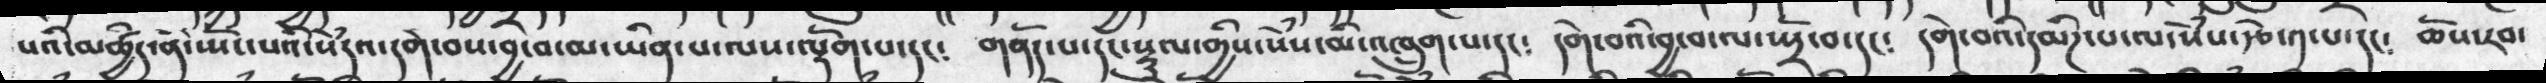པའི་མཚྱིད་ནི་ཡོང་པའི་སེྃདའ་དགེ་བས་བྱ་བ་མ་ཡིན་པ་ལས་ལྡོག་པ་དང༴  གནོད་པ་དང་སྡུལ་གྱིས་སེྃས་མི་འཁྲུག་པ་དང༴  དགེ་བའི་བྱ་བ་ལ་སྤྲོ་བ་དང༴  དགེ་བའི་དམིཌ་པ་ལ་སེྃས་རྩེ་༡་པ་དང༴   ཆོས་རབ་
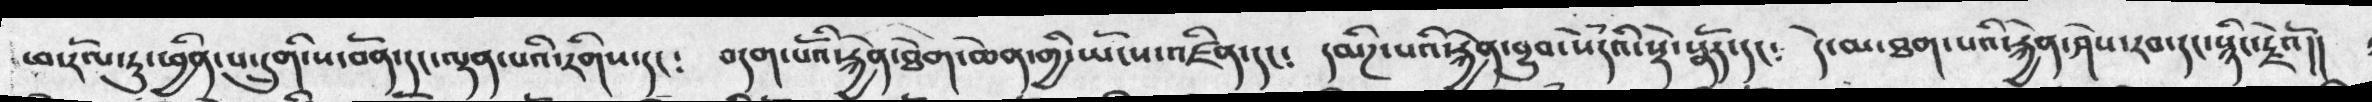ཕ་རོལ་ཏུ་ཕྱིན་པ་དྲུགི་སབོན་དང་ལྡན་པའི་རིགས་དང༴   བདག་པོའི་རྐྱེན་ཐེག་ཆེན་གྱི་ཡོངས་འཛིན་དང༴   དམིཌ་པའི་རྐྱེན་བྱུབ་སེདྃའི་སྟེ་སྣོད་དང༴   དེ་མ་ཐག་པའི་རྐྱེན་ཤེས་རབ་དང་སྙིང་རྗེའོ།།
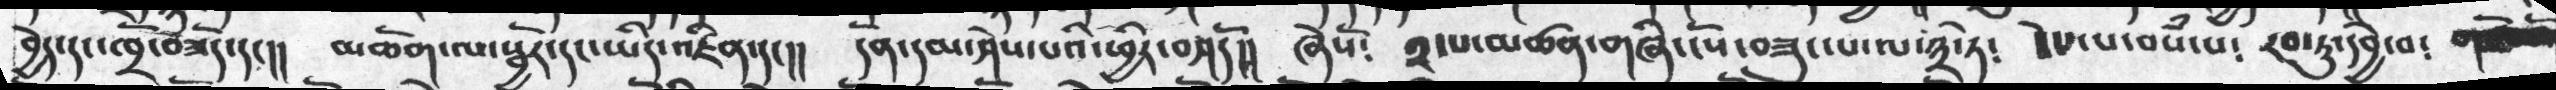བྱེད་དང་ཁྲོ་བཟོད་དང།།   མཆོག་ལ་སྦྱོར་དང་ཡིད་འཛིན་དང།།  དོན་དམ་ཤེས་པའི་ཕྱིར་བཤད་དོ།  ཞེསོ༴   ༢་པ་མཚན་གཞི་ངོས་བཟུང་པ་ལ་༣་ཏེ༴  ངེས་པ་བསཾ་པ༴   རབ་ཏུ་དབྱེ་བ༴  གཙོ་བོ་
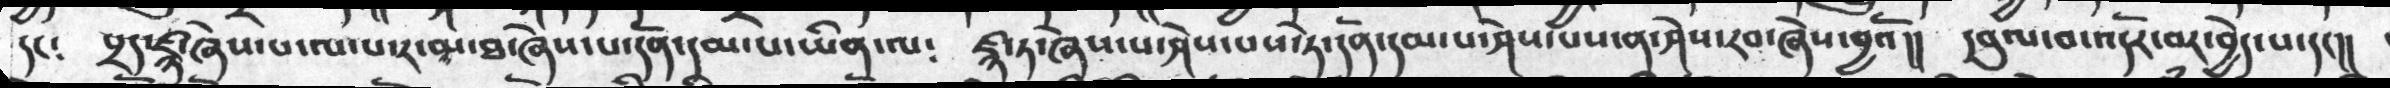དང༴    པྲདདཛྙ་ཞེས་པ་ལ་པ་ར་མ་ཐ་ཞེས་པ་དོན་དམ་པ་ཡིན་ལ༴   ཛྙ་ཏ་ཞེས་པ་ཤེས་པས་ཏེ་དོན་དམ་པ་ཤེས་པས་ན་ཤེས་རབ་ཞེས་བྱའོ།།   དབུལ་བ་འདོར་བར་བྱེད་པ་དང།།
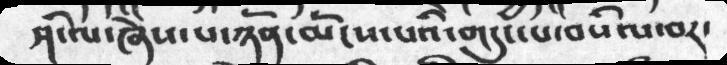ཤི་ལ་ཞེས་པ་ཉོན་མོངས་པའི་གདུང་པ་བསིལ་བར་
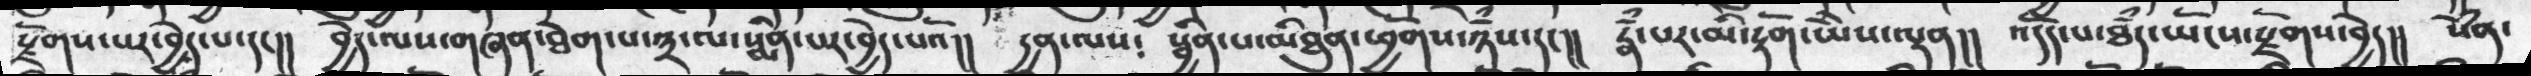སྗོགས་པར་བྱེད་པ་དང།།   བྱེད་ལས་གཞན་ཐེག་པ་༣་ལ་སྨིན་པར་བྱེད་པའོ།།   དྱན་ལས༴   སྦྱིན་པ་མིཐུན་ཕྱོགས་ཉཾས་དང།།   རྣཾ་པར་མི་རྟོག་ཡེེས་ལྡན།།  འདོད་པ་ཐཾད་ཡོངས་རྗོགས་བྱེད།།   སེཾན་
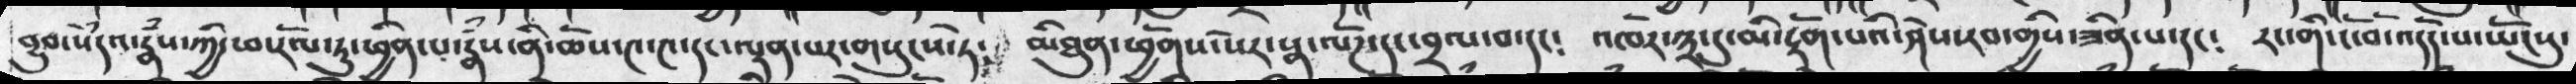བྱུབ་སེྃདའ་རྣཾས་ཀྱི་ཕ་རོལ་ཏུ་ཕྱིན་པ་རྣཾས་ནི་ཆོས་༤་༤་དང་ལྡན་པར་གསུངས་ཏེ༴   མིཐུན་ཕྱོགས་སེར་སྣ་ལོཌ་དང་བྲལ་བ་དང༴  འཁོར་༣་དུ་མི་རྟོག་པའི་ཤེས་རབ་གྱིས་ཟིན་པ་དང༴  རང་གི་ངོ་བོ་འདོད་པ་ཡོངསུ་
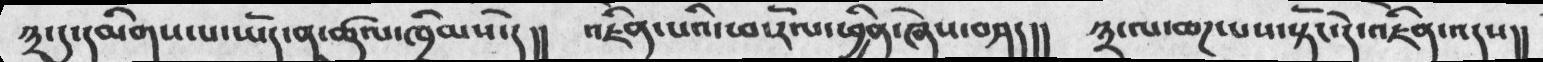༣་དུ་དམིགས་པ་ཡོད་ན་ཚུལ་ཁྲིམས་དེ།།   འཇིེན་པའི་ཕ་རོལ་ཕྱིན་ཞེས་བཤད།།    ༣་ལ་ཆཌ་པས་སྟོང་དེ་འཇིེན་འདས།།
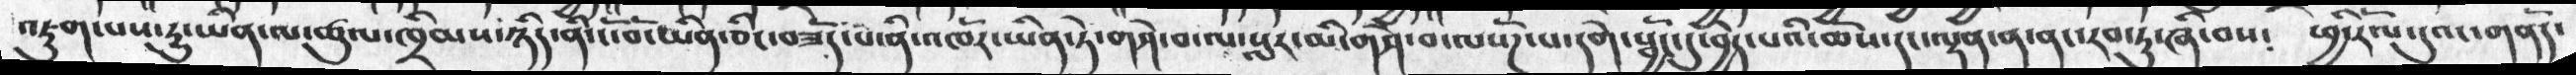འཇུག་པས་རྱུ་ཡིན་ལ་ཚུལ་ཁྲིམས་ཉིད་ནི་ངོ་བོ་ཡིན་ཅིང་བཟོད་པ་ནི་འཁོར་ཡིན་ཏེ་གཤེ་བ་ལ་སླར་མི་གཤེ་བ་ལ་སོཌ་པ་དགེ་སྦྱོང་དུ་བྱེད་པའི་ཆོས་དང་ལྡན་ན་ནང་རབ་ཏུ་ཞི་བས༴   ཕྱི་རོལ་དུའང་གནོད་
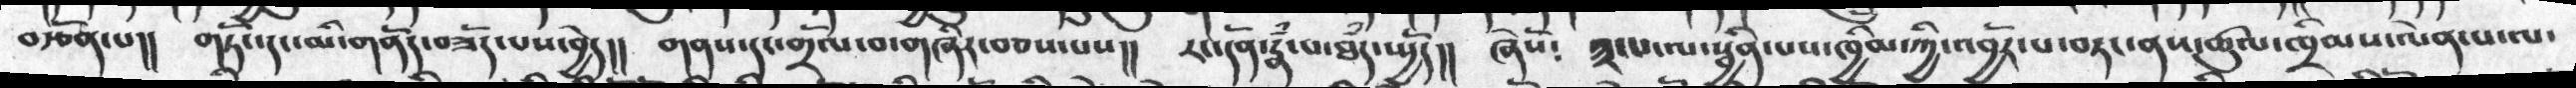བརྩོན་པ།།  གཏོང་དང་མི་གནོད་བཟོད་པས་བྱེད།།   གནས་དང་གྲོལ་བ་གཞིར་བཅས་པས།།  རང་དོན་རྣཾ་པ་ཐཾད་ཡྱོད།།  ཞེསོ༴    ༣་པ་ལ་སྦྱིན་པས་ཁྱིམ་ཀྱི་འབྱོར་པ་བཏང་ནས་ཚུལ་ཁྲིམས་ལེན་པ་ལ་
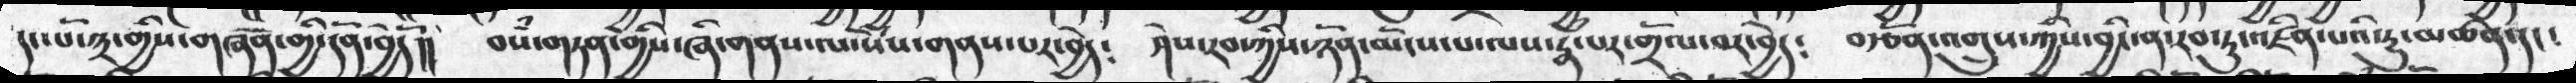དང་པོ་༣་གྱིས་གཞན་གྱི་དོན་བྱེད།།  བསཾ་གཏན་གྱིས་ཞི་གནས་ལ་སེསཾ་གནས་པར༴  ཤེས་རབ་ཀྱིས་ཉོན་མོངས་ལས་རྣཾ་པར་གྲོལ་བར་བྱེད༴    བརྩོན་འགྲུས་ཀྱིས་བྱིང་ན་རབ་ཏུ་འཛིན་པའི་རྱུ་མཚན་དང༴
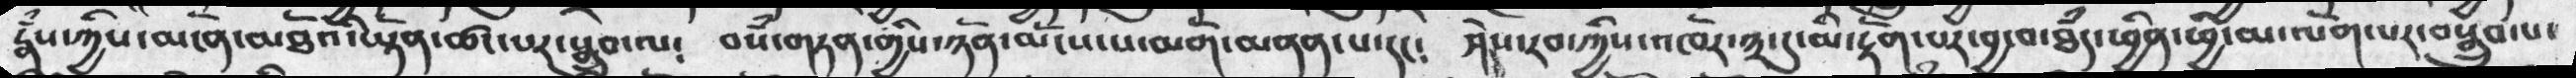རྣཾས་ཀྱིས་མངོན་མཐོའི་ཡྟོན་ཚང་པར་སྒྲུབ་ལ༴   བསཾ་གཏན་གྱིས་ཉོན་མོངས་ས་མགོ་མནན་པ་དང༴   ཤེས་རབ་ཀྱིས་འཁོར་༣་དུ་མི་རྟོག་པར་བྱ་བ་ཐཾད་ཕྱིན་ཕྱི་མ་ལོག་པར་བསྒྲུབ་པ་
